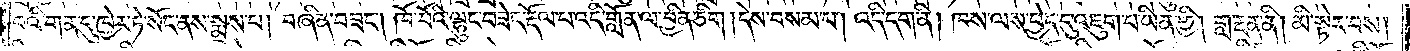བའི་གན་དུ་ཁྱེར་ཏེ་སོང་ནས་སྨྲས་པ། བཞིན་བཟང༌། ཁོ་བོའི་ལྷུང་བཟེད་རྡོལ་བ་འདི་གློན་ལ་བྱིན་ཅིག །དེས་བསམ་པ། འདི་དག་ནི། ཁས་ལས་བྱེད་དུ་འཇུག་པ་ཡིན་གྱི། གླ་རྔན་ནི། མི་སྟེར་པས།
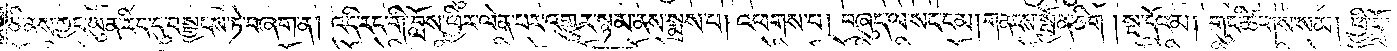ཅི་ནས་ཀྱང་ཡུན་རིང་དུ་བསྒྱངས་ཏེ་བཞག་ན། འདི་རང་གི་བློས་ཕྱིར་ལེན་པར་འགྱུར་སྙམ་ནས་སྨྲས་པ། འཕགས་པ། བཞུད་ལ་སང་ངམ། གནངས་སྤྱོན་ཅིག །སྔ་དྲོའམ། གུང་ཚིགས་སམ། ཕྱི་དྲོ་
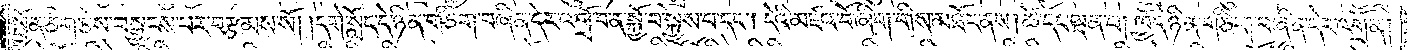སྤྱོན་ཅིག་ཅེས་བསྒྱངས་པར་བརྩམས་སོ། །དགེ་སློང་དེ་ཉིན་གཅིག་བཞིན་དེར་འགྲོ་བ་ན་སྐྱོ་བ་སྐྱེས་པ་དང༌། དེའི་མཛའ་བོ་ཞིག་གིས་མཐོང་ནས། ཚེ་དང་ལྡན་པ། ཁྱོད་ཉིན་གཅིག་བཞིན་དེར་འགྲོ་ན།
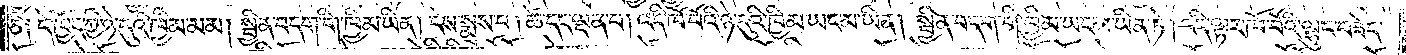ཅི༑ དེ་ཁྱོད་ཀྱི་ཉེ་དུའི་ཁྱིམ་མམ། སྦྱིན་བདག་གི་ཁྱིམ་ཡིན། དེས་སྨྲས་པ། ཚེ་དང་ལྡན་པ། འདི་ཁོ་བོའི་ཉེ་དུའི་ཁྱིམ་ཡང་མ་ཡིན། །སྦྱིན་བདག་གི་ཁྱིམ་ཡང་མ་ཡིན་ཏེ། འདི་ལྟར་ཁོ་བོའི་ལྷུང་བཟེད་
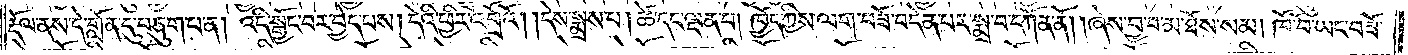རྡོལ་ནས་དེ་གློན་དུ་བཅུག་པ་ན། འདི་སྒྱོང་བར་བྱེད་པས། དེའི་ཕྱིར་འགྲོའོ། །དེས་སྨྲས་པ། ཚེ་དང་ལྡན་པ། ཁྱོད་ཀྱིས་ལག་བཟོ་བདེན་པར་སྨྲ་བ་དཀོན་ནོ། །ཞེས་བྱ་བ་མ་ཐོས་སམ། ཁོ་བོ་ཡང་བཟོ་
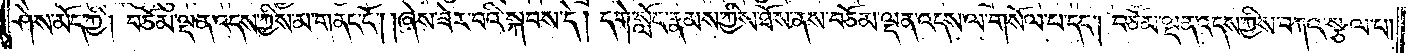ཤེས་མོད་ཀྱི། བཅོམ་ལྡན་འདས་ཀྱིས་མ་གནང་ངོ༌། །ཞེས་ཟེར་བའི་སྐབས་དེ། དགེ་སློང་རྣམས་ཀྱིས་ཐོས་ནས་བཅོམ་ལྡན་འདས་ལ་གསོལ་བ་དང༌། བཅོམ་ལྡན་འདས་ཀྱིས་བཀའ་སྩལ་པ་
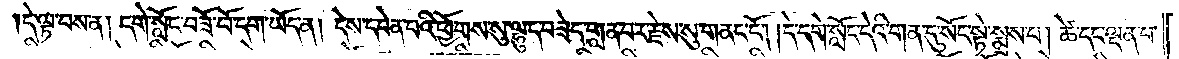དེ་ལྟ་བས་ན། དགེ་སློང་བཟོ་བོ་དག་ཡོད་ན། དེས་དབེན་པའི་ཕྱོགས་སུ་ལྷུང་བཟེད་གླན་པར་རྗེས་སུ་གནང་ངོ༌། །དེ་དགེ་སློང་དེའི་གན་དུ་སོང་སྟེ་སྨྲས་པ། ཚེ་དང་ལྡན་པ་
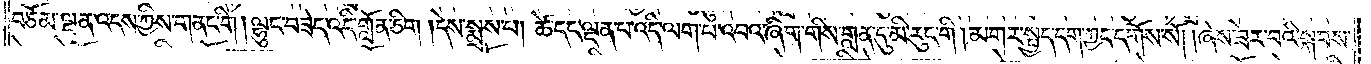བཅོམ་ལྡན་འདས་ཀྱིས་གནང་གི། ལྷུང་བཟེད་འདི་གློན་ཅིག །དེས་སྨྲས་པ། ཚེ་དང་ལྡན་པ་འདི་ལག་པ་འབའ་ཞིག་གིས་གླན་དུ་མི་རུང་གི ། མགར་སྤྱད་དག་ཀྱང་དགོས་སོ། །ཞེས་ཟེར་བའི་སྐབས་
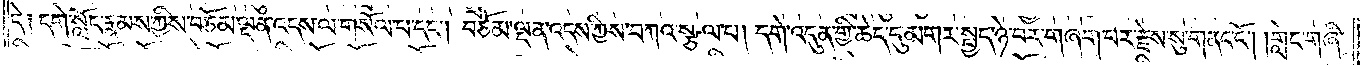དེ༑ དགེ་སློང་རྣམས་ཀྱིས་བཅོམ་ལྡན་འདས་ལ་གསོལ་བ་དང༌། བཅོམ་ལྡན་འདས་ཀྱིས་བཀའ་སྩལ་པ། དགེ་འདུན་གྱི་ཆེད་དུ་མགར་སྤྱད་ཉེ་བར་གཞག་པར་རྗེས་སུ་གནང་ངོ༌། །གླེང་གཞི་
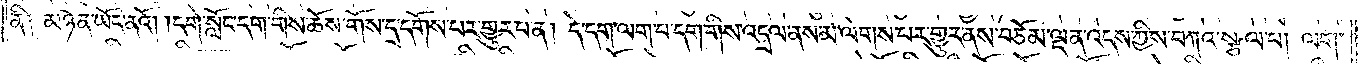ནི༑ མཉེན་ཡོད་ནའོ། །དགེ་སློང་དག་གིས་ཆོས་གོས་དྲ་དགོས་པར་གྱུར་པ་ན། དེ་དག་ལག་པ་དག་གིས་འདྲལ་ནས་མ་ལེགས་པར་གྱུར་ནས་བཅོམ་ལྡན་འདས་ཀྱིས་བཀའ་སྩལ་པ། ལག་
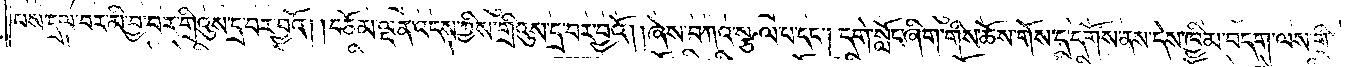པས་དྲལ་བར་མི་བྱ་བར་གྲིའུས་དྲ་བར་བྱའོ། །བཅོམ་ལྡན་འདས་ཀྱིས་གྲིའུས་དྲ་བར་བྱའོ། །ཞེས་བཀའ་སྩལ་པ་དང༌། དགེ་སློང་ཞིག་གིས་ཆོས་གོས་དྲ་དགོས་ནས་དེས་ཁྱིམ་བདག་ལས་གྲི་
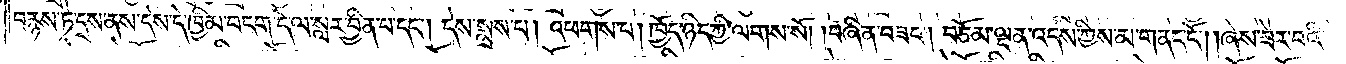བརྙས་ཏེ་དྲས་ནས་དེས་དེ་ཁྱིམ་བདག་དེ་ལ་སླར་བྱིན་པ་དང༌། དེས་སྨྲས་པ། འཕགས་པ། ཁྱོད་ཉིད་ཀྱི་ལགས་སོ། །བཞིན་བཟང༌། བཅོམ་ལྡན་འདས་ཀྱིས་མ་གནང་ངོ༌། །ཞེས་ཟེར་བའི་
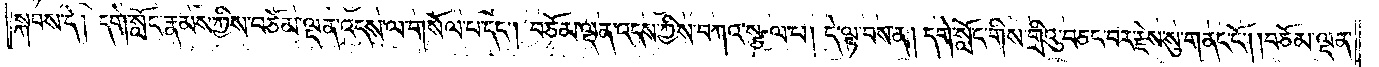སྐབས་དེ། དགེ་སློང་རྣམས་ཀྱིས་བཅོམ་ལྡན་འདས་ལ་གསོལ་བ་དང༌། བཅོམ་ལྡན་འདས་ཀྱིས་བཀའ་སྩལ་པ། དེ་ལྟ་བས་ན། དགེ་སློང་གིས་གྲིའུ་བཅང་བར་རྗེས་སུ་གནང་ངོ༌། །བཅོམ་ལྡན་
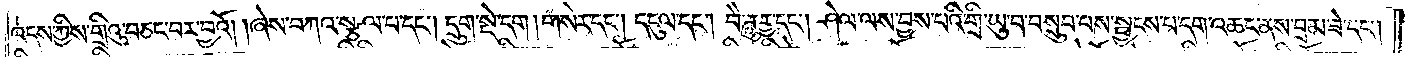འདས་ཀྱིས་གྲིའུ་བཅང་བར་བྱའོ། །ཞེས་བཀའ་སྩལ་པ་དང༌། དྲུག་སྡེ་དག །གསེར་དང༌། དངུལ་དང༌། བཻཌཱུཪྻ་དང༌། ཤེལ་ལས་བྱས་པའི་གྲི་ཡུ་བ་བསྲུབ་པས་སྦྱངས་པ་དག་འཆང་ནས་བྲམ་ཟེ་དང༌།
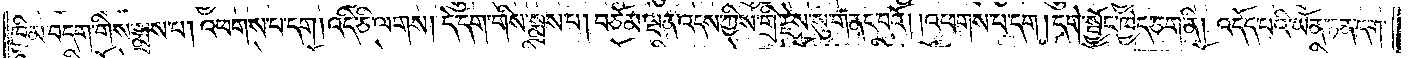ཁྱིམ་བདག་གིས་སྨྲས་པ། འཕགས་པ་དག །འདི་ཅི་ལགས། དེ་དག་གིས་སྨྲས་པ། བཅོམ་ལྡན་འདས་ཀྱིས་གྲི་རྗེས་སུ་གནང་བའོ། །འཕགས་པ་དག །དགེ་སྦྱོང་ཁྱེད་ཅག་ནི། འདོད་པའི་ཡོན་ཏན་དག་
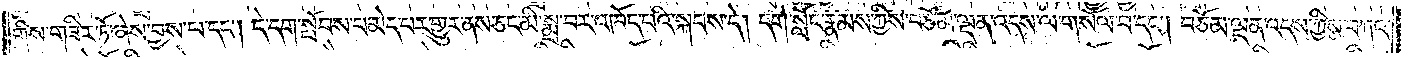གིས་གཟིར་ཏོ་ཞེས་བྱས་བ་དང༌། དེ་དག་སྤོབས་པ་མེད་པར་གྱུར་ནས་ཅང་མི་སྨྲ་བར་འཁོད་པའི་སྐབས་དེ། དགེ་སློང་རྣམས་ཀྱིས་བཅོམ་ལྡན་འདས་ལ་གསོལ་བ་དང༌། བཅོམ་ལྡན་འདས་ཀྱིས་བཀའ་
